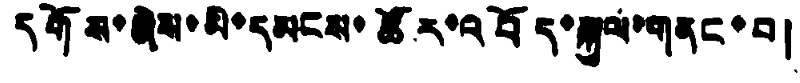དགོས་ཞེས་མི་དམངས་ཚོར་འབོད་སྐུལ་གནང་བ།
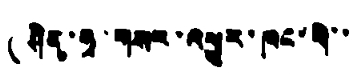(ཤིན་ཧྭ་གསར་འགྱུར་ཁང་གི་་
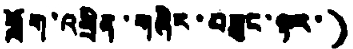གློག་འཕྲིན་གཞིར་བཞུང་ལྟར་)
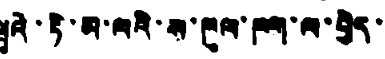ཝུའེ་ཏི་མ་ལའི་ས་ཁུལ་ཁག་ལ་བྱེད་
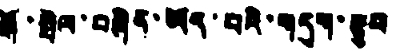སྒོ་སྤེལ་བཞིན་ཡོད་པའི་གདུག་རྩུབ
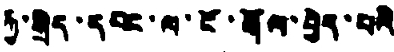ཀྱི་སྲིད་དབང་ལ་ངོ་རྒོལ་བྱེད་པའི
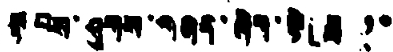སྟབས་ཤུགས་གཞན་ཞིག་སྟེ「ཟླ ༡༠
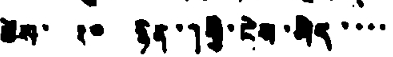ཚེས་ ༢༠ ཉིན་」གྱི་ངེས་མེད་་་་
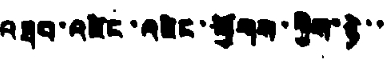འཐབ་འཛིང་འཛིང་ཕྱོགས་ཀྱིས་ཉེ་་
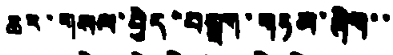ཆར་གསལ་བྱེད་བསྒྲག་གཏམ་ཞིག་་
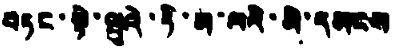བཏང་སྟེ་ཨུའེ་ཏི་མ་ལའི་མི་དམངས
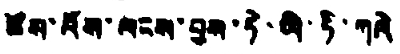ཚོས་འོས་ལངས་བྱས་ཏེ་ཡི་ཏི་ཀའེ
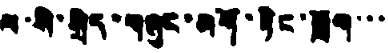ལ་སི་སྲིད་བཞུང་མགོ་རྟིང་སློག་་་
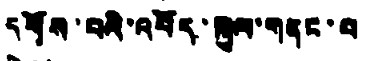དགོས་པའི་འབོད་སྐུལ་གནང་བ
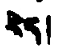རེད།
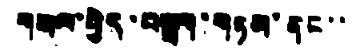གསམ་བྱེད་བསྒྲག་གཏམ་ནང་་་
